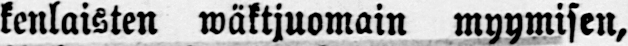kenlaisten wäktjuomain myymisen,
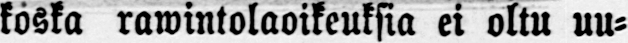koska rawintolaoikeuksia ei oltu uu-
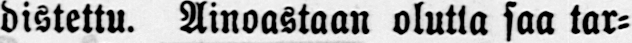distettu. Ainoastaan olutta saa tar-
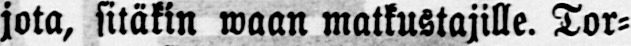jota, sitäkin waan matkustajille. Tor-
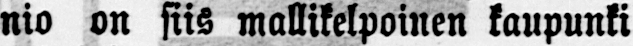nio on siis mallikelpoinen kaupunki
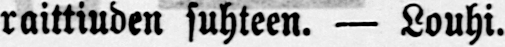raittiuden suhteen. — Louhi.
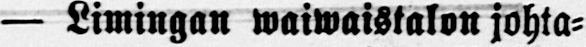— Limingan waiwaistalon johta-
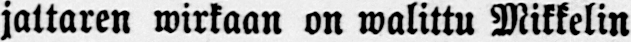jatraren wirkaan on walittu Mikkelin
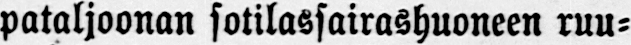pataljoonan sotilassairashuoneen ruu-
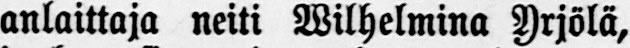anlaittaja neiti Wilhelmina Yrjölä,
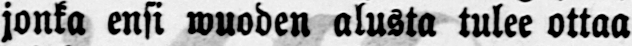jonka ensi wuoden alusta tulee ottaa
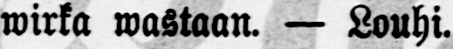wirka wastaan. — Louhi.
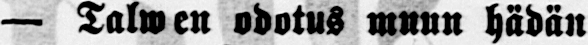— Talven odotus muun hädän
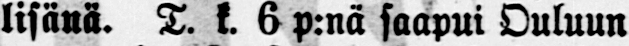lisänä. T. k. 6 p:nä saapui Ouluun
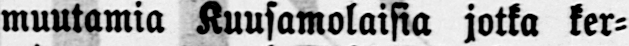muutamia Kuusamolaisia jotka ker-
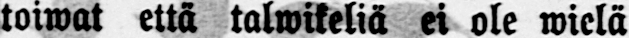toiwat että talwikeliä ei ole wielä
